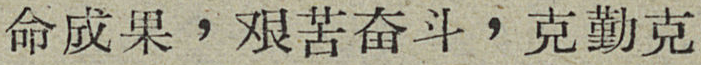命成果，艰苦奋斗，克勤克
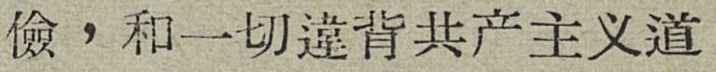儉，和一切違背共产主义道
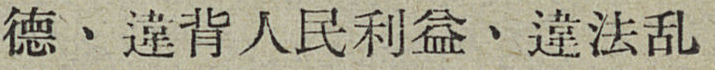德、違背人民利益、違法乱
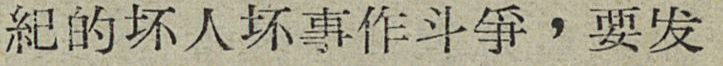紀的坏人坏事作斗爭，要发
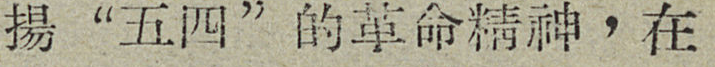揚“五四”的革命精神，在
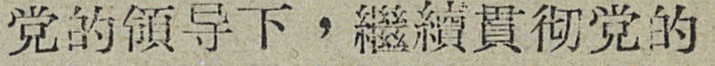党的領导下，繼續貫徹党的
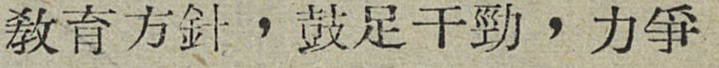敎育方針，鼓足干勁，力爭
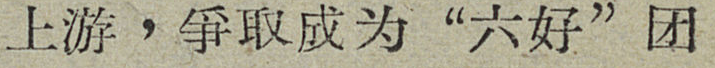上游，爭取成为“六好”团
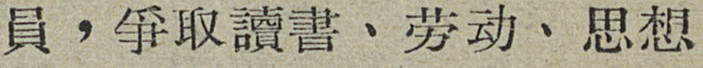員，爭取讀書、劳动、思想
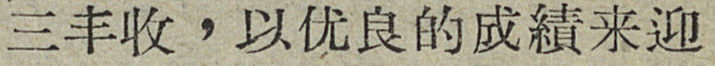三丰收，以优良的成績来迎
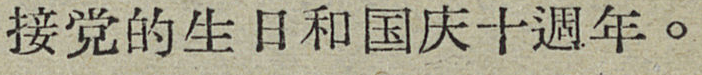接党的生日和国庆十週年。
